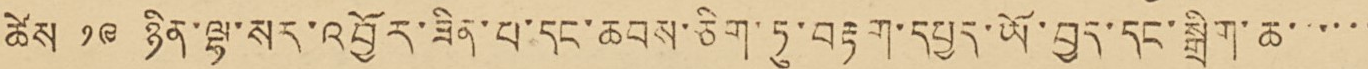ཚེས་ ༡༩ ཉིན་ལྷ་སར་འབྱོར་ཟིན་པ་དང་ཆབས་ཅིག་ཏུ་བརྟག་དཔྱད་ཡོ་བྱད་དང་སྒྲིག་ཆ་་་་་
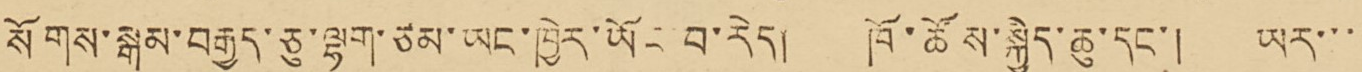སོགས་སྒམ་བརྒྱད་ཅུ་ལྷག་ཙམ་ཡང་ཁྱེར་ཡོང་བ་རེད། ཁོ་ཚོས་སྐྱེད་ཆུ་དང་། ཡར་་་་
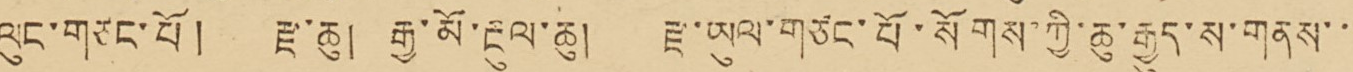ལུང་གཙང་པོ། རྫ་ཆུ། རྒྱ་མོ་རྔུལ་ཆུ། རྫ་ཡུལ་གཙང་པོ་སོགས་ཀྱི་ཆུ་རྒྱུད་ས་གནས་་་
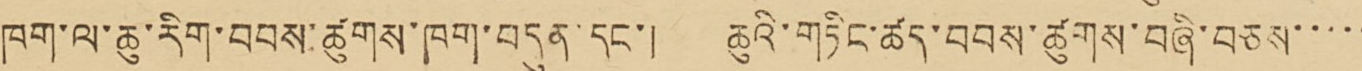ཁག་ལ་ཆུ་རིག་བབས་ཚུགས་ཁག་བདུན་དང་། ཆུའི་གཏིང་ཚད་བབས་ཚུགས་བཞི་བཅས་་་་་
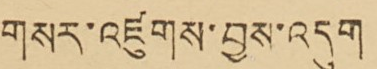གསར་འཛུགས་བྱས་འདུག
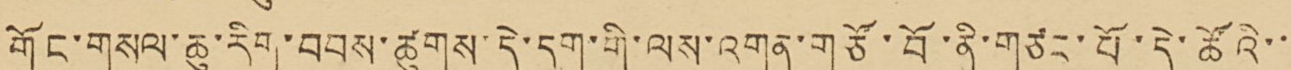གོང་གསལ་ཆུ་རིག་བབས་ཚུགས་དེ་དག་གི་ལས་འགན་གཙོ་བོ་ནི་གཙང་པོ་དེ་ཚོའི་་་
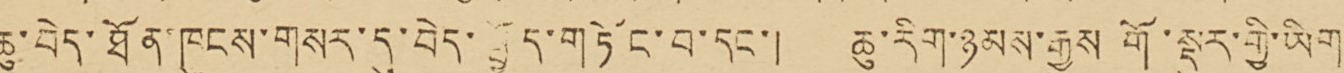ཆུ་བེད་ཐོན་ཁུངས་གསར་དུ་བེད་སྤྱོད་གཏོང་བ་དང་། ཆུ་རིག་ཉམས་རྒྱུས གོ་སྡུར་གྱི་ཡིག་
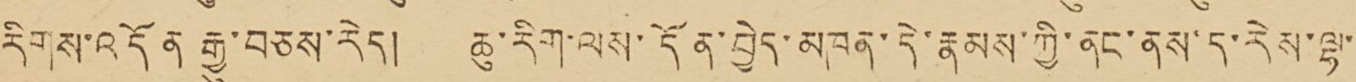རིགས་འདོན་རྒྱུ་བཅས་རེད། ཆུ་རིག་ལས་དོན་བྱེད་མཁན་དེ་རྣམས་ཀྱི་ནང་ནས་ད་རེས་ལྷ་་
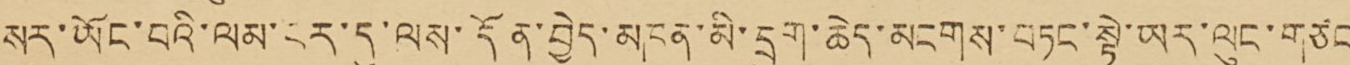སར་ཡོང་བའི་ལམ་བར་དུ་ལས་དོན་བྱེད་མཁན་མི་དྲུག་ཆེད་མངགས་བཏང་སྟེ་ཡར་ལུང་གཙང་
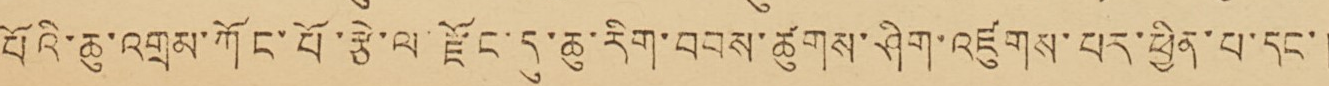པོའི་ཆུ་འགྲམ་ཀོང་པོ་རྩེ་ལ་རྫོང་དུ་ཆུ་རིག་བབས་ཚུགས་ཤིག་འཛུགས་པར་ཕྱིན་པ་དང་།
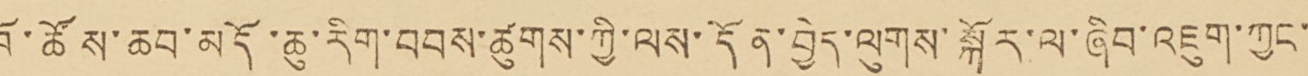ཁོ་ཚོས་ཆམ་མདོ་ཆུ་རིག་བབས་ཚུགས་ཀྱི་ལས་དོན་བྱེད་ལུགས་སྐོར་ལ་ཞིབ་འཇུག་ཀྱང་་
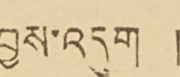བྱས་འདུག།
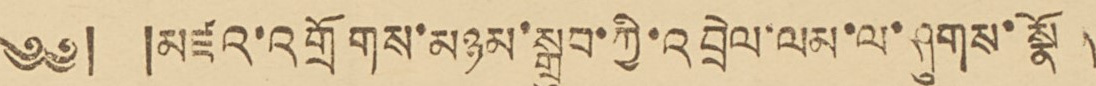༄༅། །མཛའ་འགྲོགས་མཉམ་སྒྲུབ་ཀྱི་འབྲེལ་ལམ་ལ་ཤུགས་སྣོན་
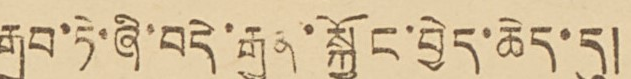རྒྱབ་ཏེ་ཞི་བདེ་རྒྱུན་སྐྱོང་བྱེད་ཆེད་དུ།
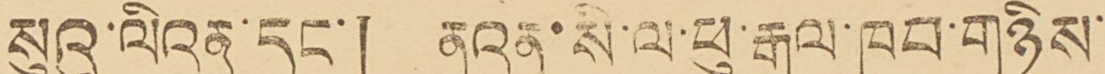སུའུ་ལིའན་དང་། ནའན་སི་ལ་ཕུ་རྒྱལ་ཁབ་གཉིས་
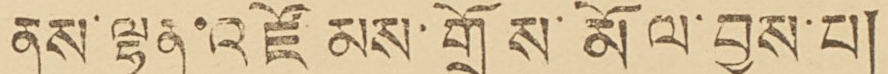ནས་ལྷན་འཛོམས་གྲོས་མོལ་བྱས་པ།
